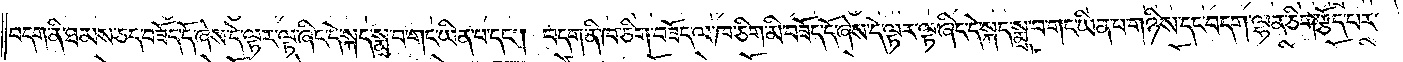བདག་ནི་ཐམས་ཅད་བཟོད་དོ་ཞེས་དེ་ལྟར་ལྟ་ཞིང་དེ་སྐད་སྨྲ་བ་གང་ཡིན་པ་དང༌། བདག་ནི་ཁ་ཅིག་བཟོད་ལ་ཁ་ཅིག་མི་བཟོད་དོ་ཞེས་དེ་ལྟར་ལྟ་ཞིང་དེ་སྐད་སྨྲ་བ་གང་ཡིན་པ་གཉིས་དང་བདག་ལྷན་ཅིག་རྩོད་པར་
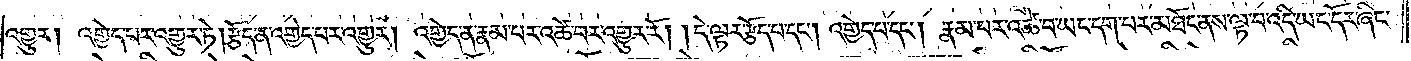འགྱུར། འགྱེད་པར་འགྱུར་ཏེ། རྩོད་ན་འགྱེད་པར་འགྱུར། འགྱེད་ན་རྣམ་པར་འཚེ་བར་འགྱུར་རོ། །དེ་ལྟར་རྩོད་པ་དང༌། འགྱེད་པ་དང༌། རྣམ་པར་འཚེ་བ་ཡང་དག་པར་མཐོང་ནས་ལྟ་བ་འདི་ཡང་དོར་ཞིང་
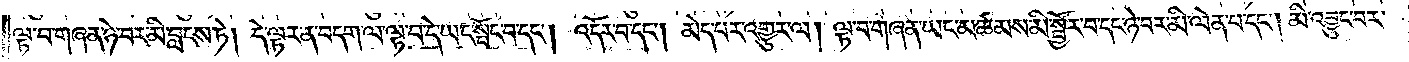ལྟ་བ་གཞན་ཉེ་བར་མི་བླངས་ཏེ། དེ་ལྟར་ན་བདག་ལ་ལྟ་བ་དེ་ཡང་སྤོང་བ་དང༌། འདོར་བ་དང༌། མེད་པར་འགྱུར་ལ། ལྟ་བ་གཞན་ཡང་མཚམས་མི་སྦྱོར་བ་དང་ཉེ་བར་མི་ལེན་པ་དང༌། མི་འབྱུང་བར་
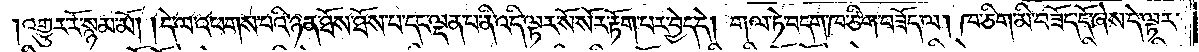འགྱུར་རོ་སྙམ་མོ། །དེ་ལ་འཕགས་པའི་ཉན་ཐོས་ཐོས་པ་དང་ལྡན་པ་ནི་འདི་ལྟར་སོ་སོར་རྟོག་པར་བྱེད་དེ། གལ་ཏེ་བདག་ཁ་ཅིག་བཟོད་ལ། ཁ་ཅིག་མི་བཟོད་དོ་ཞེས་དེ་ལྟར་
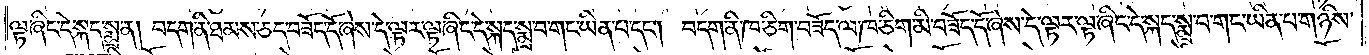ལྟ་ཞིང་དེ་སྐད་སྨྲ་ན། བདག་ནི་ཐམས་ཅད་བཟོད་དོ་ཞེས་དེ་ལྟར་ལྟ་ཞིང་དེ་སྐད་སྨྲ་བ་གང་ཡིན་པ་དང༌། བདག་ནི་ཁ་ཅིག་བཟོད་ལ་ཁ་ཅིག་མི་བཟོད་དོ་ཞེས་དེ་ལྟར་ལྟ་ཞིང་དེ་སྐད་སྨྲ་བ་གང་ཡིན་པ་གཉིས་
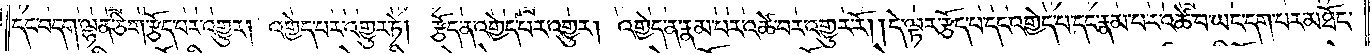དང་བདག་ལྷན་ཅིག་རྩོད་པར་འགྱུར། འགྱེད་པར་འགྱུར་ཏེ། རྩོད་ན་འགྱེད་པར་འགྱུར། འགྱེད་ན་རྣམ་པར་འཚེ་བར་འགྱུར་རོ། །དེ་ལྟར་རྩོད་པ་དང་འགྱེད་པ་དང་རྣམ་པར་འཚེ་བ་ཡང་དག་པར་མཐོང་
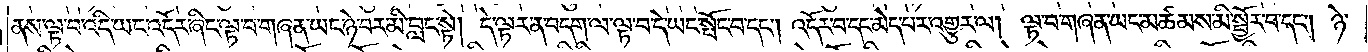ནས་ལྟ་བ་འདི་ཡང་འདོར་ཞིང་ལྟ་བ་གཞན་ཡང་ཉེ་བར་མི་བླང་སྟེ། དེ་ལྟར་ན་བདག་ལ་ལྟ་བ་དེ་ཡང་སྤོང་བ་དང༌། འདོར་བ་དང་མེད་པར་འགྱུར་ལ། ལྟ་བ་གཞན་ཡང་མཚམས་མི་སྦྱོར་བ་དང༌། ཉེ་
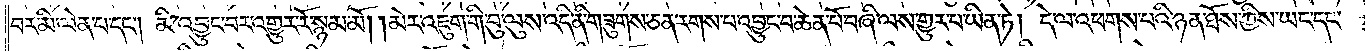བར་མི་ལེན་པ་དང༌། མི་འབྱུང་བར་འགྱུར་རོ་སྙམ་མོ། །མེར་འཇུག་གི་བུ་ལུས་འདི་ནི་གཟུགས་ཅན་རགས་པ་འབྱུང་བ་ཆེན་པོ་བཞི་ལས་གྱུར་པ་ཡིན་ཏེ། དེ་ལ་འཕགས་པའི་ཉན་ཐོས་ཀྱིས་ཡང་དང་
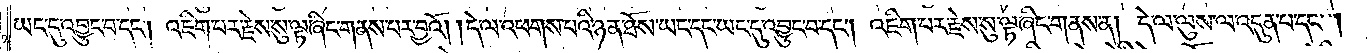ཡང་དུ་འབྱུང་བ་དང༌། འཇིག་པར་རྗེས་སུ་ལྟ་ཞིང་གནས་པར་བྱའོ། །དེ་ལ་འཕགས་པའི་ཉན་ཐོས་ཡང་དང་ཡང་དུ་འབྱུང་བ་དང༌། འཇིགས་པར་རྗེས་སུ་ལྟ་ཞིང་གནས་ན། དེ་ལ་ལུས་ལ་འདུན་པ་དང༌།
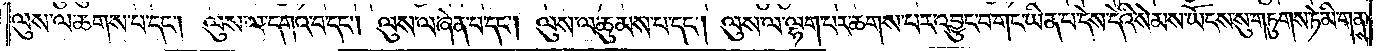ལུས་ལ་ཆགས་པ་དང༌། ལུས་ལ་དགའ་བ་དང༌། ལུས་ལ་ཞེན་པ་དང༌། ལུས་ལ་ཆུམས་པ་དང༌། ལུས་ལ་ལྷག་པར་ཆགས་པར་འབྱུང་བ་གང་ཡིན་པ་དེས་དེའི་སེམས་ཡོངས་སུ་གཏུགས་ཏེ་མི་གནས་
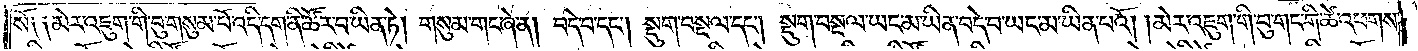སོ༑ ༑མེར་འཇུག་གི་བུ་གསུམ་པོ་འདི་དག་ནི་ཚོར་བ་ཡིན་ཏེ། གསུམ་གང་ཞེ་ན། བདེ་བ་དང༌། སྡུག་བསྔལ་དང༌། སྡུག་བསྔལ་ཡང་མ་ཡིན་བདེ་བ་ཡང་མ་ཡིན་པའོ། །མེར་འཇུག་གི་བུ་གང་གི་ཚེ་འཕགས་
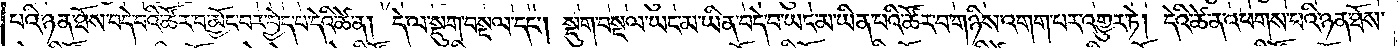པའི་ཉན་ཐོས་བདེ་བའི་ཚོར་བ་མྱོང་བར་བྱེད་པ་དེའི་ཚེ་ན། དེ་ལ་སྡུག་བསྔལ་དང༌། སྡུག་བསྔལ་ཡང་མ་ཡིན་བདེ་བ་ཡང་མ་ཡིན་པའི་ཚོར་བ་གཉིས་འགག་པར་འགྱུར་ཏེ། དེའི་ཚེ་ན་འཕགས་པའི་ཉན་ཐོས་
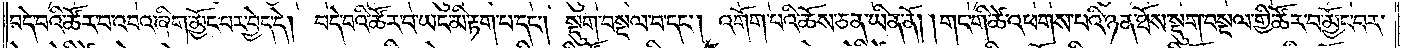བདེ་བའི་ཚོར་བ་འབའ་ཞིག་མྱོང་བར་བྱེད་དེ། བདེ་བའི་ཚོར་བ་ཡང་མི་རྟག་པ་དང༌། སྡུག་བསྔལ་བ་དང༌། འགོག་པའི་ཆོས་ཅན་ཡིན་ནོ། །གང་གི་ཚེ་འཕགས་པའི་ཉན་ཐོས་སྡུག་བསྔལ་གྱི་ཚོར་བ་མྱོང་བར་
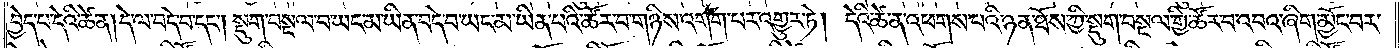བྱེད་པ་དེའི་ཚེ་ན། དེ་ལ་བདེ་བ་དང༌། སྡུག་བསྔལ་བ་ཡང་མ་ཡིན་བདེ་བ་ཡང་མ་ཡིན་པའི་ཚོར་བ་གཉིས་འགག་པར་འགྱུར་ཏེ། དེའི་ཚེ་ན་འཕགས་པའི་ཉན་ཐོས་ཀྱི་སྡུག་བསྔལ་གྱི་ཚོར་བ་འབའ་ཞིག་མྱོང་བར་
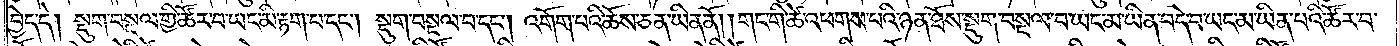བྱེད་དེ། སྡུག་བསྔལ་གྱི་ཚོར་བ་ཡང་མི་རྟག་པ་དང༌། སྡུག་བསྔལ་བ་དང༌། འགོག་པའི་ཆོས་ཅན་ཡིན་ནོ། །གང་གི་ཚེ་འཕགས་པའི་ཉན་ཐོས་སྡུག་བསྔལ་བ་ཡང་མ་ཡིན་བདེ་བ་ཡང་མ་ཡིན་པའི་ཚོར་བ་
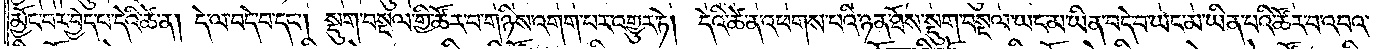མྱོང་བར་བྱེད་པ་དེའི་ཚེ་ན། དེ་ལ་བདེ་བ་དང༌། སྡུག་བསྔལ་གྱི་ཚོར་བ་གཉིས་འགག་པར་འགྱུར་ཏེ། དེའི་ཚེ་ན་འཕགས་པའི་ཉན་ཐོས་སྡུག་བསྔལ་ཡང་མ་ཡིན་བདེ་བ་ཡང་མ་ཡིན་པའི་ཚོར་བ་འབའ་
